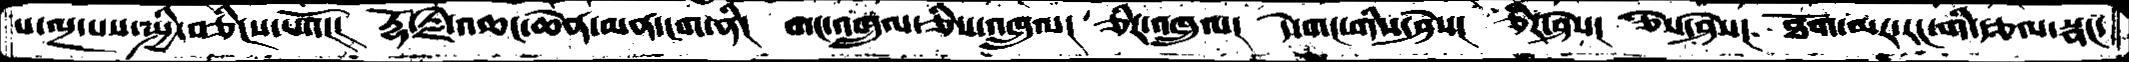པ་ལྔ་པས་སྤྱི་བཅིངས་པའོ།།།  རྡོ་རྗེ་འཆང་ཆེན་མན་ངག་ནི།  གང་འཁྲུལ་ཅིས་འཁྲུལ།  ཅིར་འཁྲུལ།  དེ་གང་གིས་ཤེས།  ཅིར་ཤེས།  ཅིས་ཤེས།  ཐོག་མར་རང་གི་རྩལ་སྣང་
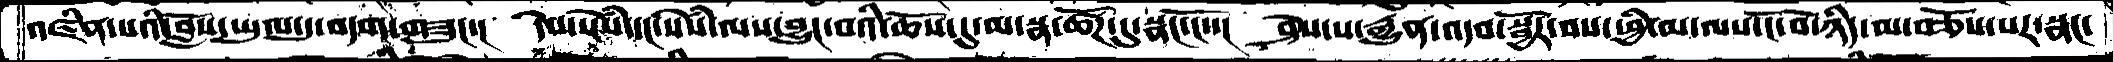འཛིན་པའི་བློས་ཡུལ་དུ་བདག་གཟུང་།  དེས་སེཾས་དང་སེཾས་ལས་བྱུང་བའི་ཆོས་དུ་མ་སྣ་ཚོཌ་དུ་སྣང་ངོ་་།  ཤེས་པ་རྒྱུན་འདབ་སྦྱོར་བས་ཕྱི་མ་ལས་ངོ་བོ་ཉིད་མ་བཅོས་པར་སྣང་
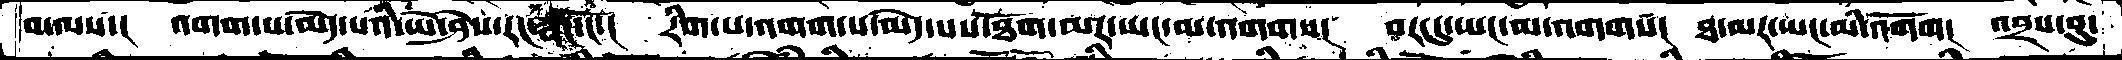བ་ལས་།  འགག་པ་མེད་པའི་ཡེ་ཤེས་རང་སྣང་ངོ་།  རིག་པ་འགག་པ་མེད་པས་ཐོག་མར་ཡང་མ་འགགས།  བར་དུ་ཡང་མ་འགགས།  ཐ་མར་ཡང་མི་འགོག།  འབྲས་བུ་
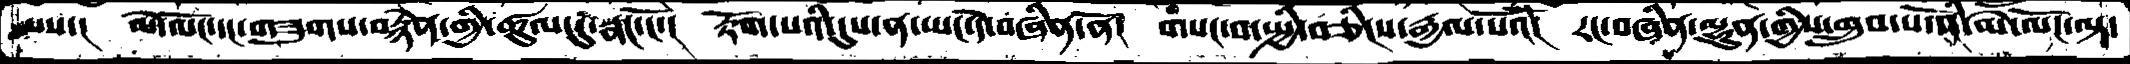ལས་།  མེ་ལོང་དང་གཟུགས་བརྙེན་གྱི་ཚུལ་དུ་སྣང་ངོ་།  རྟོག་པའི་དུས་ན་ཡང་དེ་བཞིན་ནོ།  གསང་བ་སྤྱི་བཅིངས་རྒྱལ་པོའོ་།  རང་བཞིན་ལྷུན་གྱིས་གྲུབ་པ་ནི་མེ་ལོང་ལྟ་
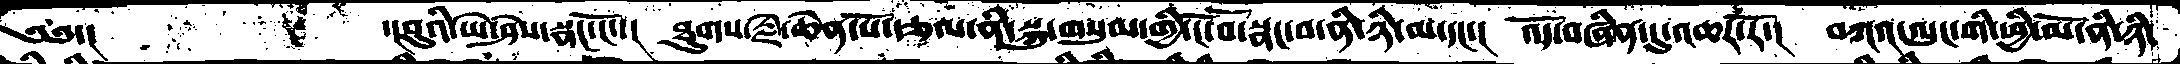༄༅་།      ་།བུའི་ཡེ་ཤེས་སྣང་ངོ་་།  ཐུགས་རྗེ་ཆེན་པོ་རྩལ་ནི་སྐུ་གསུམ་གྱི་ངོ་བོ་སྣང་བ་ནི་ཉི་མ་དང་།  འོད་བཞིན་དུ་འཆར་རོ་།  བཀའ་ལུང་གི་ཕྱི་མོ་ནི་ཉི་
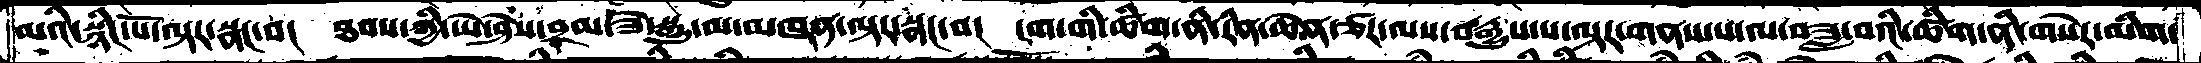མའི་སྙིང་པོ་ལྟར་སྣང་བ།  ཐབས་ཀྱི་ཡེ་ཤེས་བྲམ་ཟེ་སྒྱུ་མ་མཁན་ལྟར་སྣང་བ།  ངག་གི་ཚིག་ནི་རིན་ཆེན་ཙར་ལས་བརྒྱུས་པ་ལྟར་གནས་པ་ལ་བཟླ་བའི་ཚིག་ནི་གསེར་མིག་
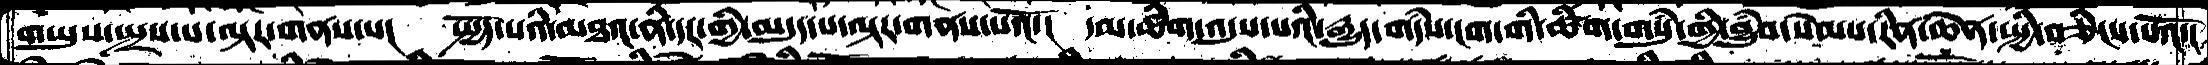གཡུས་སྤྲས་པ་ལྟར་གནས་པ།  སྤྱོད་པའི་མཐའ་ནི་དར་གྱི་མདུད་པ་ལྟར་གནས་པའོ་།  དམ་ཚིག་འདུས་པའི་རྒྱུད་གདཾས་ངག་གི་ཚིག་གསུཾ་གྱི་བྱུཾབ་སེམས་རིན་ཆེན་སྤྱི་བཅིངས་པའོ་།
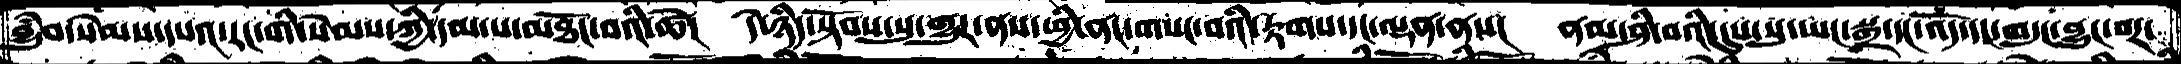བྱུཾབ་སེམས་དཔའ་རང་གི་སེམས་ཀྱི་དམ་པ་མཐོང་བའི་ཚེ།  དེ་ཉིད་སྟོབས་སུ་གྱུར་ནས་ཕྱི་ནང་གསང་བའི་རྟགས་དང་ལྡན་ནས།  ནམ་ཤི་བའི་དུས་སུ་ཡང་སྒྲ་དང་འོད་དང་གདུང་བྱུང་བར་
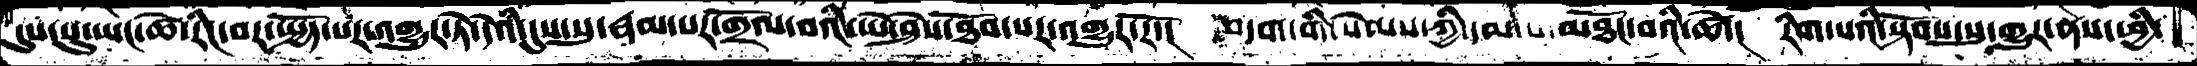དུས་སུ་ཡང་ཚེ་རིང་བར་སྤྱོད་པར་འགྱུར་ཏེ་དེའི་དུས་སུ་རྣམ་པར་གྲོལ་བའི་ཡེ་ཤེས་ཐོབ་པར་འགྱུར་རོ་།  བདག་གི་སེམས་ཀྱི་དམ་པ་མཐོང་བའི་ཚེ་།  རིག་པའི་སྟོབས་སུ་གྱུར་ནས་ཕྱི་
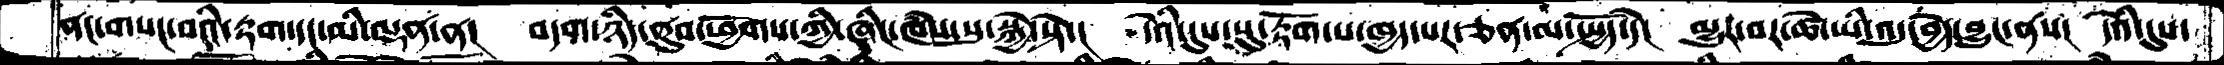ནང་གསང་བའི་རྟག་དང་མི་ལྡན་ན།  བདག་ཉིད་ནུབ་ཕྱོགས་ཀྱི་ཞིང་ཁཾས་སུ་སྐྱེ་སྟེ་།  དེའི་དུས་སུ་རྟོག་པ་ཁྱད་པར་ཅན་ལ་སྤྱོད་དེ།  མྱུར་བར་ཚེ་ཡི་འདུ་བྱེད་བྱུང་ནས།  དེའི་དུས་
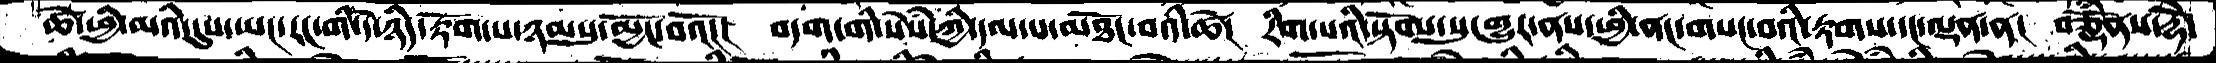ཚེ་ཕྱི་མའི་དུས་ཡང་རང་གི་དེ་ཉིད་རྟོག་པ་ཉམསུ་མྱོང་བའོ།།  བདག་གི་སེཾས་ཀྱི་དམ་པ་མཐོང་བའི་ཚེ།  རིག་པའི་སྟོབས་སུ་གྱུར་ནས་ཕྱི་ནང་གསང་བའི་རྟགས་དང་ལྡན་ན།  བཅྟོཾནས་རྡོེ་
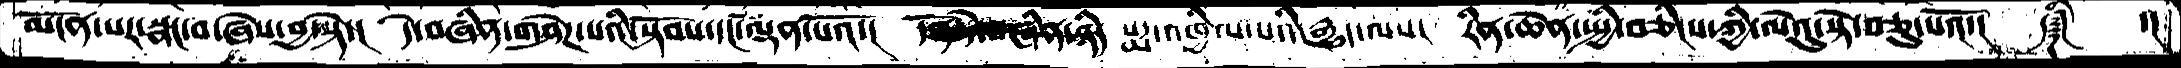མངོན་པར་སྣང་བ་ཞེས་བྱ་སྟེ་།  དེ་བཞིན་གཤེཌ་པའི་སྟོབས་དང་ལྡན་པའོ་།  དོན་དེ་བཞིན་ཉིད པདྨ་འཁྱིལ་པའི་རྒྱུད་ལས་།  རིན་ཆེན་སྤྱི་བཅིངས་ཀྱི་ལེའུ་སྟེ་བཅུ་པའོ་།  ༼༈ི༽   ་།
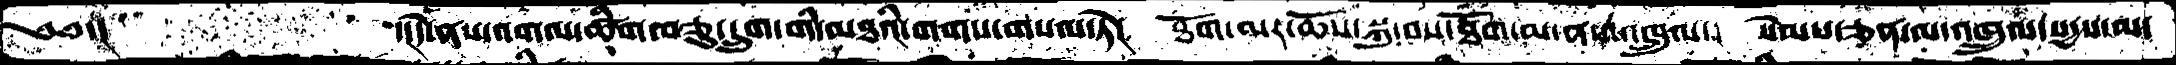༄༅་།        ་།དེ་ནས་འགལ་ཚིག་བཅུ་དྲུག་གི་མཐའི་གགས་གསལ་ཏེ།  ཐོག་མར་ཆོས་སྐུ་བས་ཐོག་མ་ནས་འཁྲུལ་།  སེམས་ཅན་མ་འཁྲུལ་སདྱས་མ་
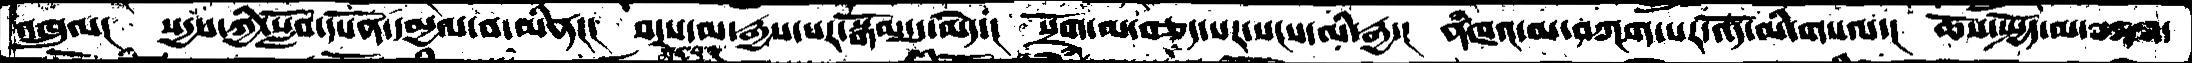འཁྲུལ།  སདྱས་ཀྱི་སློབ་དཔོན་དམྱལ་བ་མིན་།  བདས་མ་རྒྱས་པར་སྒོམ་དུ་མེད་།  སྲོག་མ་བཅད་པར་སངས་མི་རྒྱ་།  ནཾཁའ་མ་བཀག་པར་འདོ་མི་གསལ་།  ཆོས་སྤྱོད་མ་བཀག་
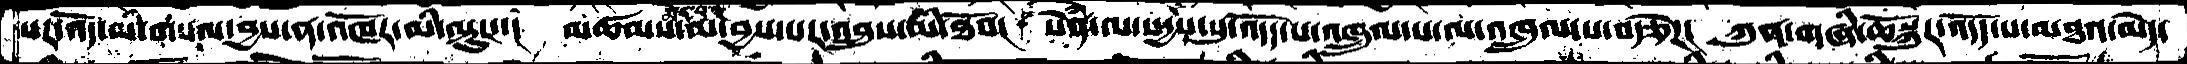པར་འདོ་མི་གསལ་བྱས་ན་འཁོར་མི་ལྟུང་་།  མཚམས་མ་བྱས་པར་འབྲུས་མི་ཐོབ་།  སེཾན་ལ་སདྱས་སུ་འདོད་པ་འཁྲུལ་པ་ལ་འཁྲུལ་པ་བརྩེཌ།  ཀུན་གཞི་ཆོསྐུར་འདོད་པ་མཐའ་མེད་
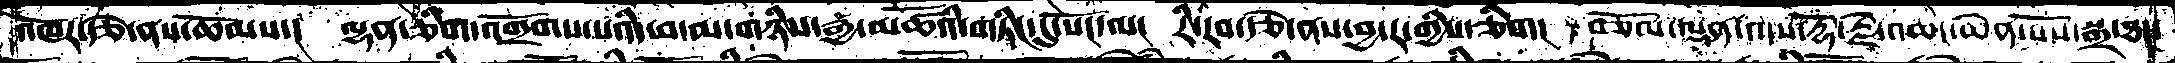འཁོར་རྩེ་ནས་ཆོམས་།  ལྷན་ཅིག་འགྲོགས་པའི་ཕ་མ་གཉིས་རྒྱ་མཚོའི་གཏིང་དུ་སོང་ལ།  རི་རབ་རྩེ་ནས་བྱ་ར་གྱིས་ཅིག།  བཅོམ་ལྡན་འདས་རྡོ་རྗེ་འཆང་ཆེན་པོས་སྒྲ་ཐདཾ
